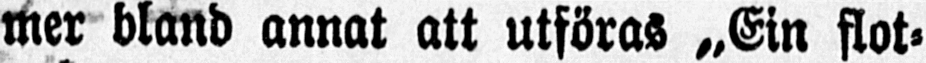mer bland annat att utföras „Ein flot-
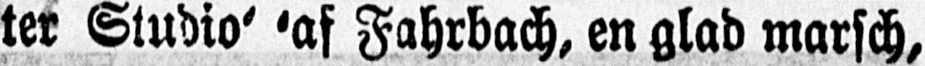ter Studio' 'af Fahrbach, en glad marsch,
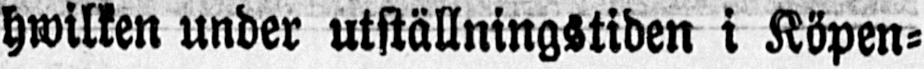hwilken under utställningstiden i Köpen-
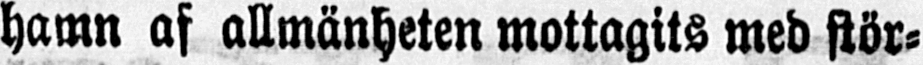hamn af allmänheten mottagits med stör-
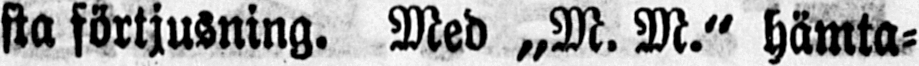sta förtjusning. Med „M. M." hämta-
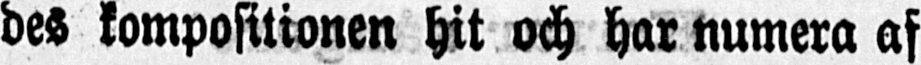des kompositionen hit och har numera af
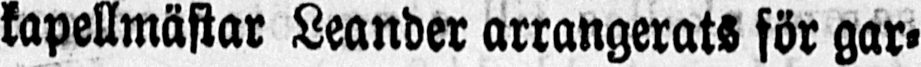kapellmästar Leander arrangerats för gar-
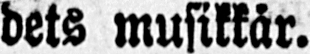dets musikkår.
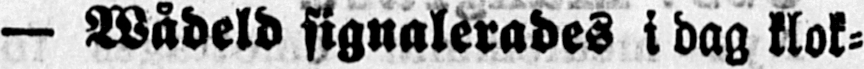— Wådeld signalerades i dag klok-
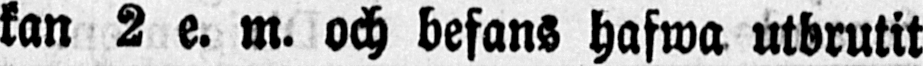kan 2 e. m. och befans hafwa utbrutit
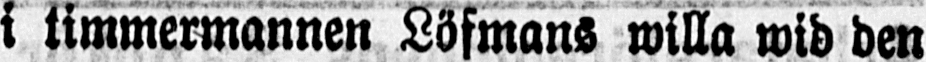i timmermannen Löfmans willa wid den
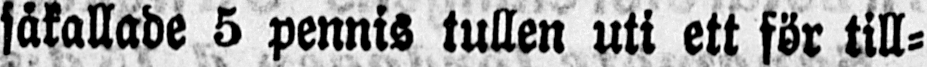såkallade 5 pennis tullen uti ett för till-
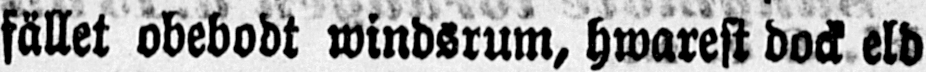fället obebodt windsrum, hwarest dock eld
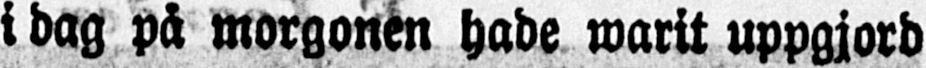i dag på morgonen hade warit uppgjord
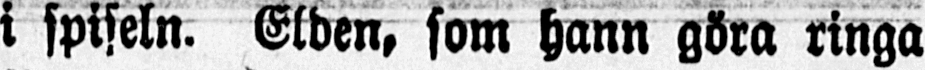i spiseln. Elden, som hann göra ringa
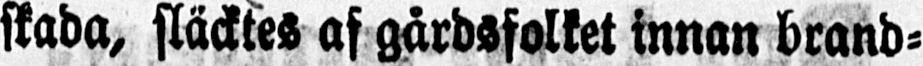skada, släcktes af gårdsfolket innan brand-
